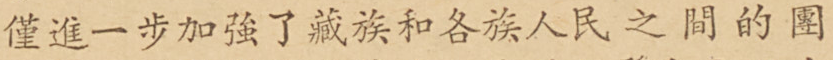僅進一步加強了藏族和各族人民之間的團
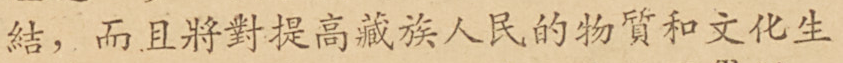結，而且將對提高藏族人民的物質和文化生
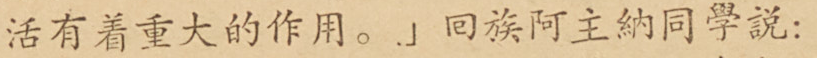活有着重大的作用。」囘族阿主納同學說：
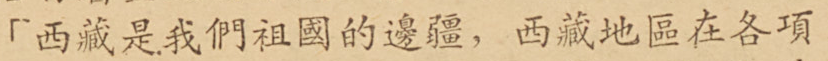「西藏是我們祖國的邊疆，西藏地區在各項
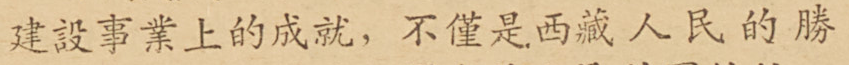建設事業上的成就，不僅是西藏人民的勝
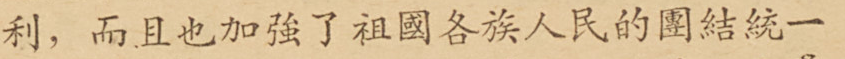利，而且也加強了祖國各族人民的團結統一
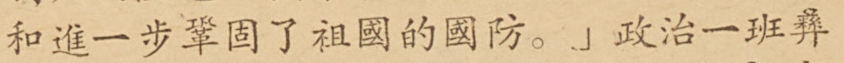和進一步鞏固了祖國的國防。」政治一班彝
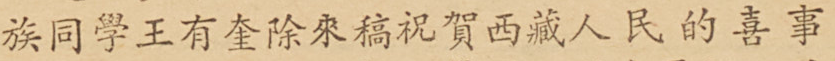族同學王有奎除來稿祝賀西藏人民的喜事
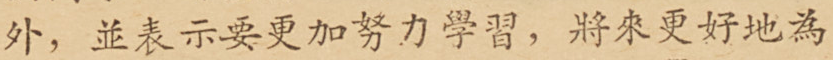外，並表示要更加努力學習，將來更好地為
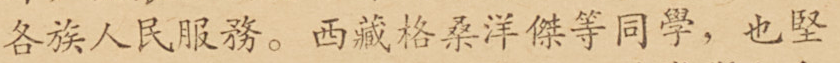各族人民服務。西藏格桑洋傑等同學，也堅
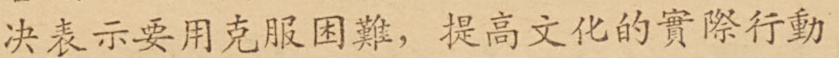決表示要用克服困難，提高文化的實際行動
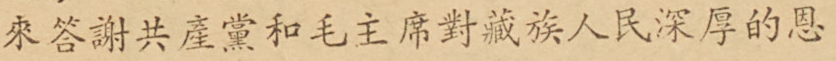來答謝共產黨和毛主席對藏族人民深厚的恩
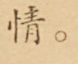情。
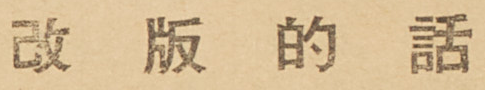改 版 的 話
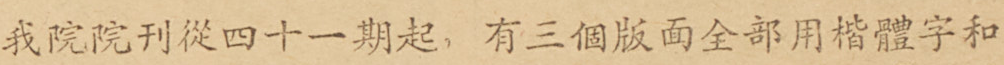我院院刊從四十一期起，有三個版面全部用楷體字和
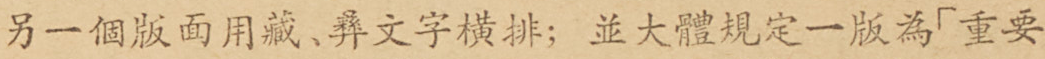另一個版面用藏、彝文字橫排；並大體規定一版為「重要
